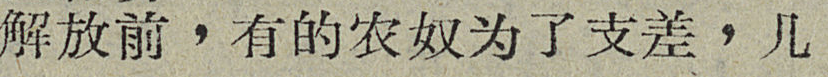解放前，有的农奴为了支差，几
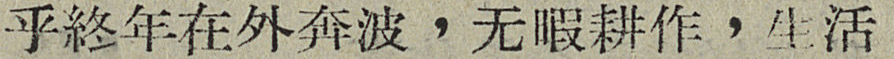乎終年在外奔波，无暇耕作，生活
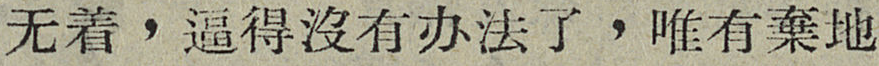无着，逼得沒有办法了，唯有棄地
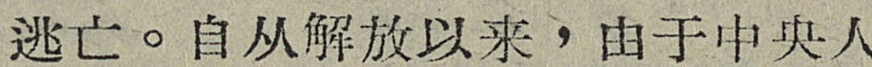逃亡。自从解放以来，由于中央人
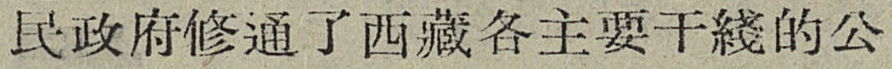民政府修通了西藏各主要干綫的公
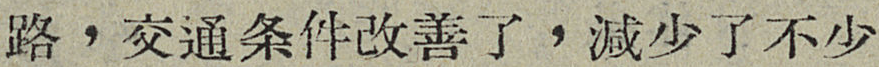路，交通条件改善了，減少了不少
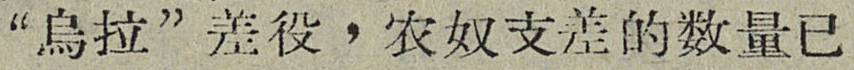“烏拉”差役，农奴支差的数量已
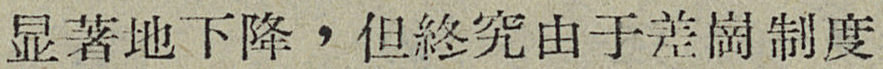显著地下降，但終究由于差崗制度
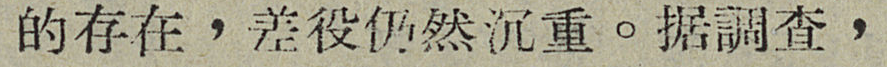的存在，差役仍然沉重。据調查，
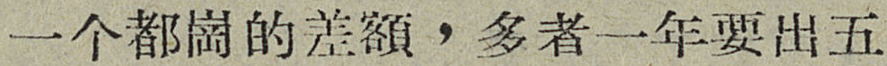一个都崗的差額，多者一年要出五
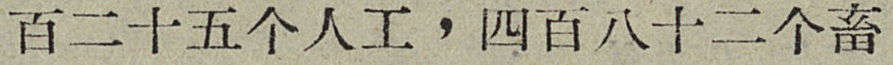百二十五个人工，四百八十二个畜
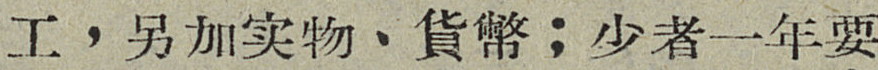工，另加实物、貨幣；少者一年要
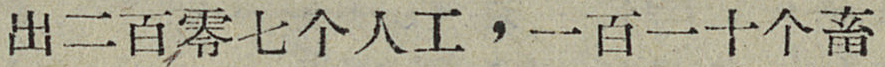出二百零七个人工，一百一十个畜
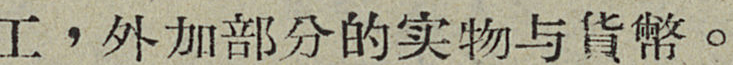工，外加部分的实物与貨幣。
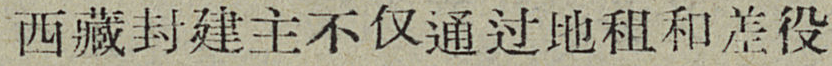西藏封建主不仅通过地租和差役
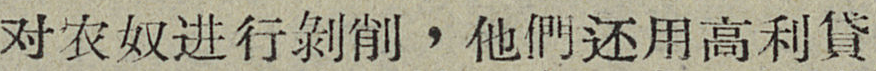对农奴进行剝削，他們还用高利貸
